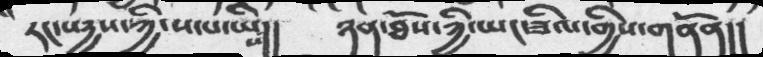རང་སདྱས་ཀྱི་ས་པ་ཡིས།།  ཉན་ཐོས་ཀྱི་ཡང་ཟིལ་གྱིས་གནོན།།
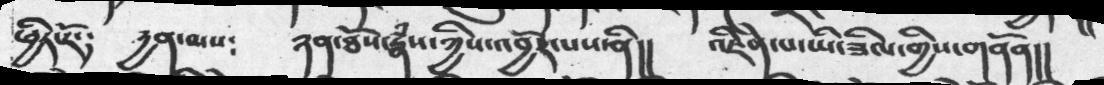ཕྱིར་རོ་༴   དྱན་ལས༴     ཉན་ཐོས་རྣཾས་ཀྱིས་འབྱོར་པས་ནི།།   འཇིེན་པ་ཡི་ཟིལ་གྱིས་གནོན།།
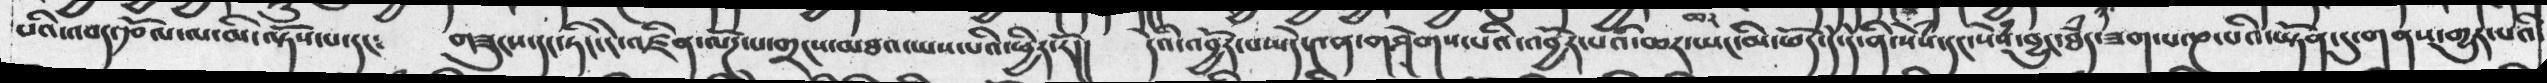པའི་འབད་རྩོལ་ལ་མི་ལྟོས་པ་དང༴  གཟུངས་དང་ཏིང་ངེ་འཛིན་ལོཌ་པ་གངས་མཐའ་ཡས་པའི་ཕྱིར་རོ།།  དེའི་འབྱོར་བས་དེ་༤ན་གཤེགས་པའི་འབྱོར་པའི་ཆར་ཡང་མི་ཕོད་དོ་དེ་ནི་སེཾས་དང་སེཾས་བྱུང་ཐཾད་ཟག་པ་ཎ་པའི་ཡོཏན་དུ་གནས་གྱུར་པའི
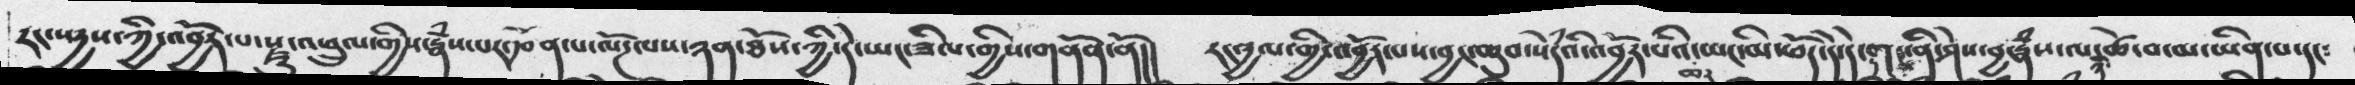རང་སདྱས་ཀྱི་འབྱོར་པ་རྫུ་འཕྲུལ་གྱིས་རྣཾས་པར་རྩོན་པ་ལོཌལས་ཉན་ཐོས་ཀྱི་དེ་ཡང་ཟིལ་གྱིས་གནོན་ནོ།།  རང་དྱལ་གྱི་འབྱོར་པས་བྱང་ཆུབ་སེཾདའི་འབྱོར་པའི་ཆར་ཡང་མི་ཕོད་དེ་དེ་དག་ནི་ཤེས་བྱ་རྣཾས་ལ་ཉི་ཚེ་བ་མ་ཡིན་པ་དང༴
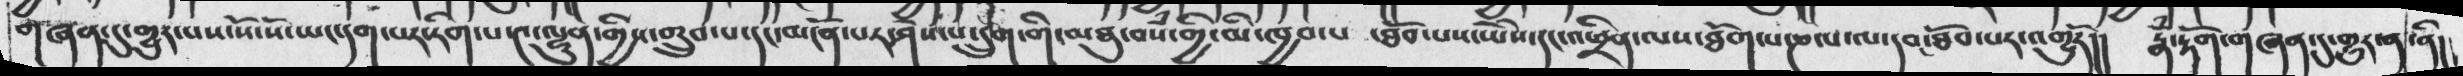གཞན་དུ་གྱུར་པས་སོ་སོ་ཡང་དག་པར་རིག་པ་༤་ལྷུན་གྱིས་གྲུབ་པ་དང་མངོན་པར་ཤེས་པ་དྲུག་གི་མཐུ་བསཾ་གྱི་མི་ཁྱབ་པ ་ཐོབ་པས་ཡེེས་དང་འཕྲིན་ལས་ཐོག་པ་ཎ་པ་ལ་དབང་ཐོབ་པར་འགྱུརོ།།  རྣཾ་རྟོག་གཞན་དུ་གྱུར་ན་ནི།
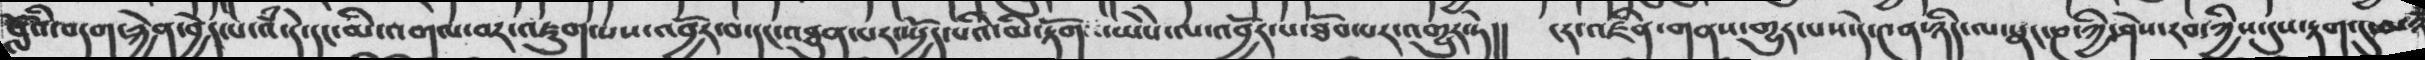བློའི་བདག་རྐྱེན་བྱེད་པ་འཾ་དེ་དང་མི་འགལ་བར་འཇུག་པས་འབྱོར་བ་དང་འཐུན་པར་སྤྱོད་པའི་མི་རྟོགས་ཡེེས་ལ་འབྱོར་པ་ཐོབ་པར་འགྱུར་ཏེ།།  ངར་འཛིན་གནས་གྱུར་པས་དེ་༤ན་ཉིར་ལ་སྣང་ཎ་ཀྱི་ཤེས་རབ་ཀྱིས་དུས་རྟག་དུ་མཉ
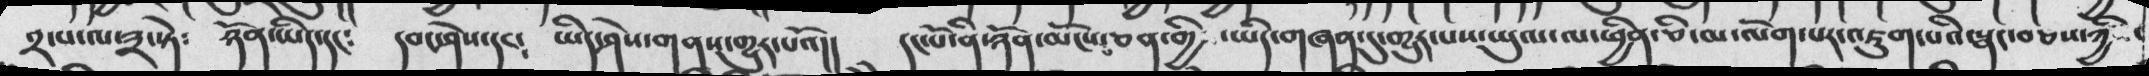༢་པ་ལ་༣་སྟེ ༴  ཉོན་ཡིད་དང༴  དབང་ཤེས་དང༴  ཡིད་ཤེས་གནས་གྱུར་པའོ།།  དང་པོ་ནི་ཉོན་མོངས་ཅན་གྱི་ཡིད་གཞན་དུ་གྱུར་པས་ཡུལ་ལ་ཕྱིན་ཅི་མ་ལོག་པར་འཇུག་པའི་སྣང་བཅས་ཀྱི་
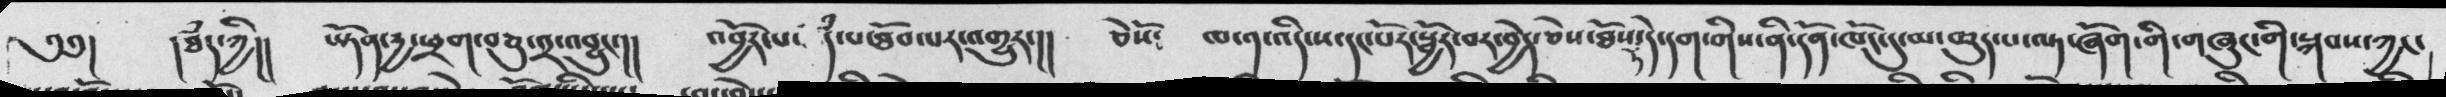༄༅།  །ཐཾད་ཀྱི།།  ཡོཏན་རྱ་ཕྲག་བཅུ་༢་འབྱུང་།།  འབྱོར་པ་དཾ་པ་ཐོབ་པར་འགྱུར་།།  ཅེསོ ༴  ཁ་༡་འདི་ས་དང་པོར་སྦྱོར་བར་བྱེད་ཅེས་ཐོས་དེ་དག་གིས་ནི་དོན་ཁོང་དུ་ཆུད་པ་ལྟ་ཞོག་གི་གཞུང་གི་སྐབས་ཀྱང་
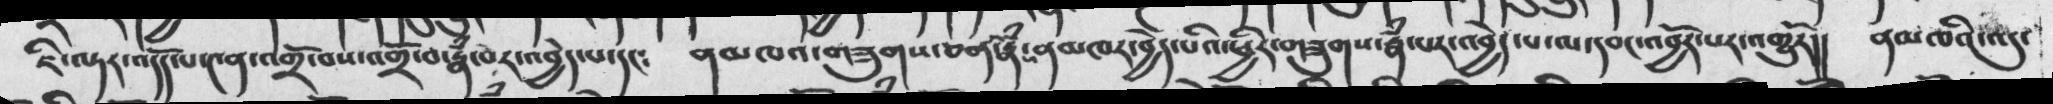ཇི་ལྟར་འདོད་པ་༤ན་འགྲོ་བས་འགྲོ་བ་རྣཾ་པར་འབྱེད་པ་དང༴  ནམཁའ་གཟུགས་ཅན་རྣཾས་ནམཁར་བྱེད་པའི་ཕྱིར་གཟུགས་རྣཾ་པར་འབྱེད་པ་ལ་དབང་འབྱོར་པར་འགྱུརོ།།  ནམཁའི་འདུ་
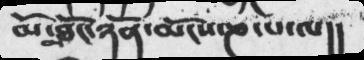མོ་མཐོང་ཉོན་མོངས་ཎ་པ་ལ།།
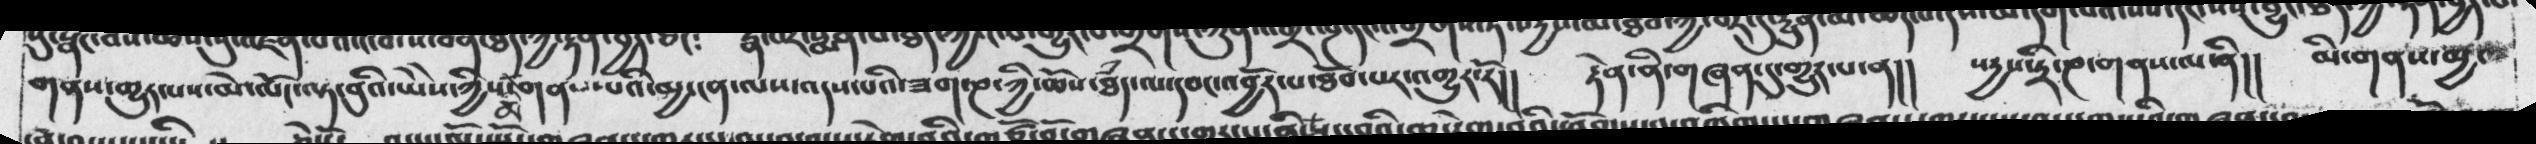གནས་གྱུར་པས་མེ་ལོང་ལྟ་བུའི་ཡེེས་ཀྱི་མ་གནས་པའི་མྱ་ངན་ལས་འདས་པའི་ཟག་ཎ་ཀྱི་ཆོས་ཐཾད་ལ་དབང་འབྱོར་པ་ཐོབ་པར་འགྱུར་རོ།།  རྟེན་ནི་གཞན་དུ་གྱུར་པ་ན།། སདྱས་དྲི་ཎ་གནས་ལ་ནི།།  མི་གནས་མྱ་
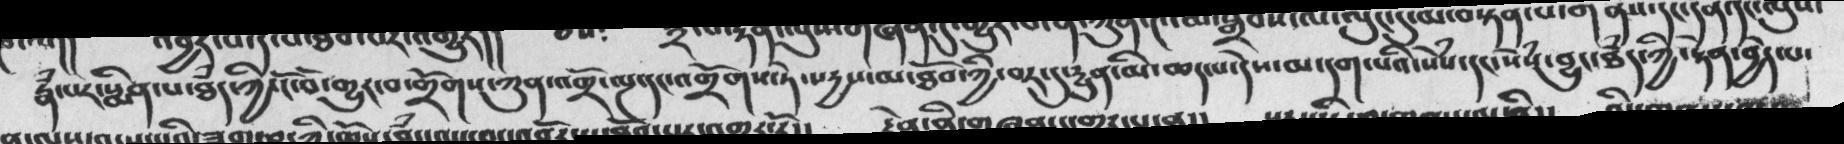རྣཾ་པར་སྨིན་པ་ཐཾད་ཀྱི་ངོ་བོ་གྱུར་བ་གྲོགས་ཀུན་འགྲོ་ལྔ་དང་འགྲོགས་ཏེ་སདྱས་མ་ཐོབ་ཀྱི་བར་དུ་དྱུན་མ་ཆད་པ་དེས་མ་དག་པའི་སེཾས་དང་སེཾས་བྱུང་ཐཾད་ཀྱི་རྟེན་བྱེད་པ་
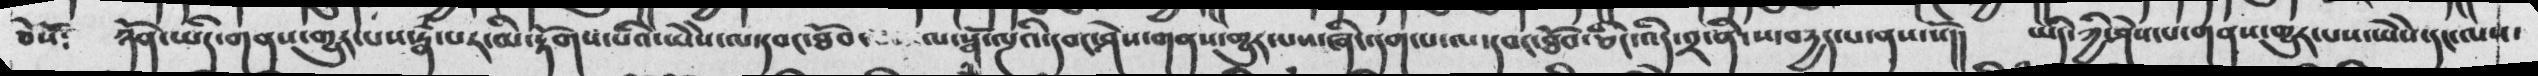ཅེསོ༴  ཉོན་ཡིད་གནས་གྱུར་པས་རྣཾ་པར་མི་རྟོགས་པའི་ཡེེས་ལ་དབང་ཐོབ་  ལ་སྒོ་ལྔའི་དབང་ཤེས་གནས་གྱུར་པས་ཞིང་དག་པ་ལ་དབང་ཐོབ་ཅིང་འདི་༢་ནི་ཡ་བདྱད་པ་ནས་སོ།།  ཡིད་ཀྱི་ཤེས་པ་གནས་གྱུར་པས་ཡེེས་དང་ལས་
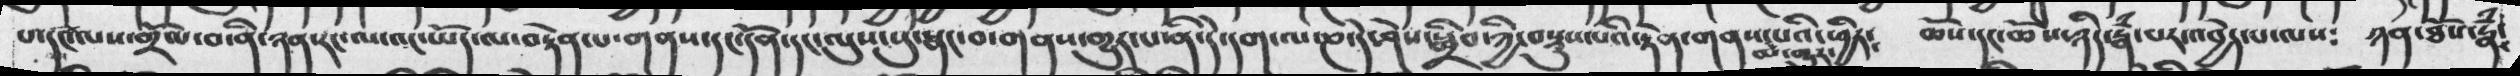པ་དང་ལས་གྲོལ་བ་ནི་ཉན་རང་ལ་འང་ཡོད་ལ་བརྟེན་པ་གནས་དང་དོན་དང་ལུས་སུ་སྣང་བ་གནས་གྱུར་པ་ནི་དེ་དག་ལ་ཎ་དེ་ཤེས་སྒྲིབ་ཀྱི་བསྡུས་པའི་རྟེན་གནས་མ་གྱུར་པའི་ཕྱིར༴  ཆོས་དང་ཆོས་ཉིད་རྣཾ་པར་འབྱེད་པ་ལས༴  ཉན་ཐོས་རྣཾས་
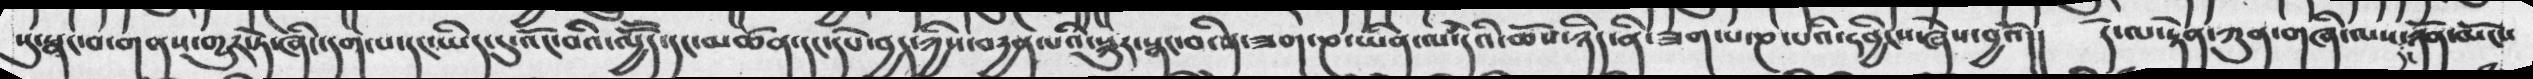སུ་སྣང་བ་གནས་གྱུར་ཏེ་ཞིང་དག་པ་དང་ཡིད་དུ་འོང་བའི་ལྱོོད་་དང་མཚན་དང་དཔེ་བྱད་ཀྱིས་བདྱན་པའི་སྐུར་སྣང་བ་ནི་ཟག་ཎ་ཡིན་ལ་དེའི་ཆོས་ཉིད་ན་ཟག་པ་ཎ་པའི་དབྱིངས་ཞེས་བྱའོ།།  དེ་ལ་རྟེན་ཀུན་གཞི་ལས་དང་ཉོན་མོངས
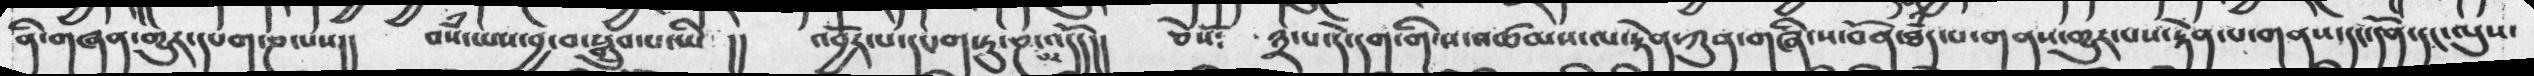ནི་་གཞན་གྱུར་དཔག་ཎ་པས།།  བསཾ་ཡས་བྱ་བ་སྒྲུབ་པ་ཡི  །།  འབྱོར་པ་དཔག་ཏུ་ཎ་པ་འདོད།།  ༣་པ་དེ་དག་ས་འཚམས་ལ་རྟེན་ཀུན་གཞི་ས་བོན་ཐཾད་པ་གནས་གྱུར་པས་རྟེན་པ་གནས་དང་དོན་དང་ལུས་
